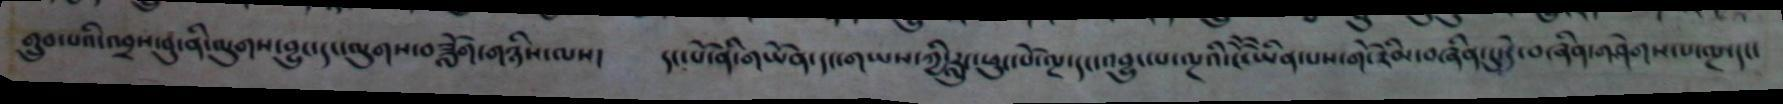གྲུབ་པའི་འབྲས་བུ་ནི་ལུགས་བྱུང་དང་ལུགས་བཟློག་གཉིས་ལས། དང་པོ་ནི་གཡོན་དང་གཡས་ཀྱི་རླུང་ཕུང་པོ་ལྔ་དང་འབྱུང་པ་ལྔའི་ངཽ་ཡིན་པས་གོ་རིམ་བཞིན་དུ་དེ་བཞིན་གཤེགས་པ་ལྔ་དང་
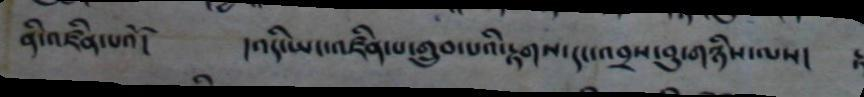ནི་འཛིན་པའོ། །འདི་ཡང་འཛིན་པ་གྲུབ་པའི་རྟགས་དང་འབྲས་བུ་གཉིས་ལས།
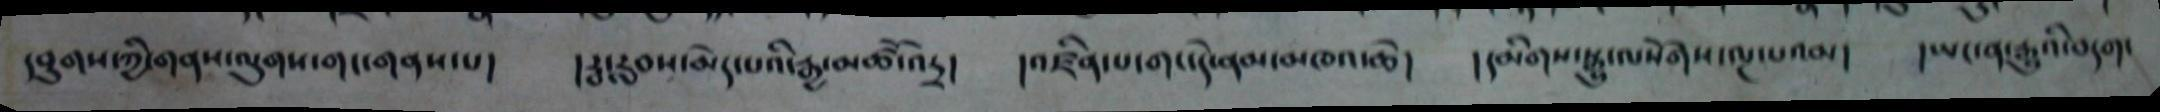དབུགས་ཀྱི་གནས་ལུགས་གང་གནས་པ། །རྦ་རླབས་མེད་པའི་རྒྱ་མཚོ་འདྲ། འཛིན་པ་གང་དེ་ནམ་མཁའ་ཆེ། །དམིགས་སྒྱུ་ལསོགས་ལྔ་པའམ། །ཡང་ན་རྒྱུའི་བདག་
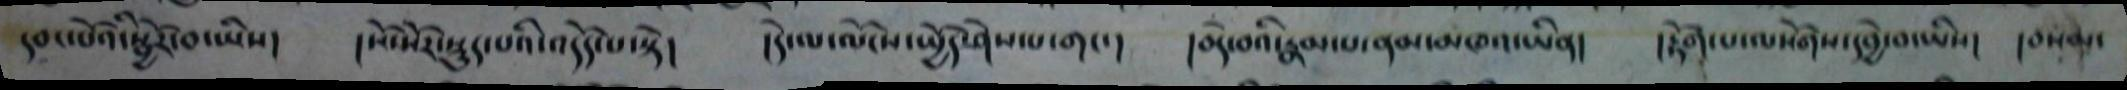དབང་པོའི་སྦྱོར་བ་ཡིས། །སོ་སོར་སྡུད་པའི་འདོད་པ་སྟེ། །དེ་ལ་ལོངས་སྤྱོད་ཤེས་པ་གང་། །བདེ་བའི་རྣམ་པ་ནམ་མཁའ་ཡིན། །རྟོག་པ་ལསོགས་དབྱེ་བ་ཡིས། །བསམ་
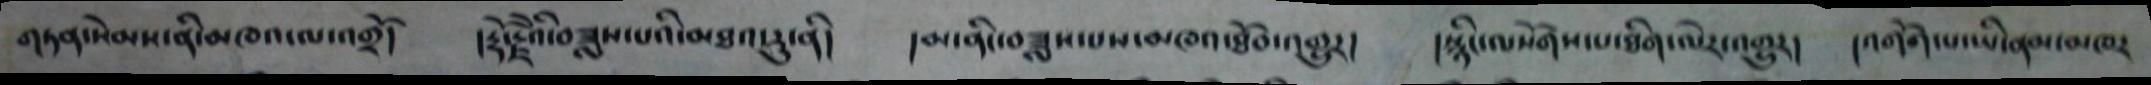གཏན་སེམས་ནི་མཁའ་ལ་འགྲོ། །རྡོ་རྗེའི་བཟླས་པའི་མཐའ་རུ་ནི། །མ་ནིང་བཟླས་པས་མཁའ་ཐོབ་འགྱུར། །སྙིང་ལསོགས་པ་ཐིག་ལེར་འགྱུར། །འགོག་པ་ཡི་ནམ་མཁར
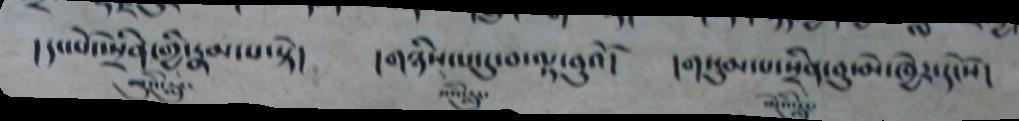།  དང་པོ་སྲིན་གྱི་རྣམ་པ་སྟེ།   ། གཉིས་པ་དུ་བ་ལྟ་བུའོ།   ། གསུམ་པ་སྲིན་བུ་མེ་ཁྱེར་དངོས།
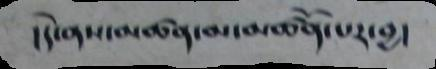།དེ་ནས་མཚན་མ་ཚོན་པར་བྱ།
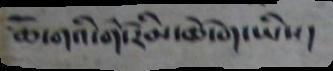ཆོ་གའི་གོ་རིམ་ཆོ་ག་ཡིས།
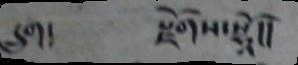དྲུག།    སྫོགས་སཱོ།།
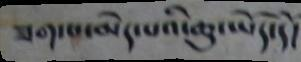ཟག་པ་མེད་པའི་ཆུ་ཡོད་དོ།
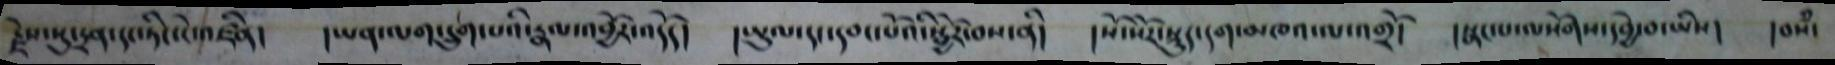རྗེས་སུ་དྲན་དང་ཏིང་ངེ་འཛིན། །ཡན་ལག་དྲུག་པའི་རྣལ་འབྱོར་འདོད། །ཡུལ་དང་དབང་པོའི་སྦྱོར་བས་ནི། །སོ་སོར་སྡུད་དག་མཁའ་ལ་འགྲོ། །སྣང་པ་ལསོགས་དབྱེ་བ་ཡིས། །བསཾ་
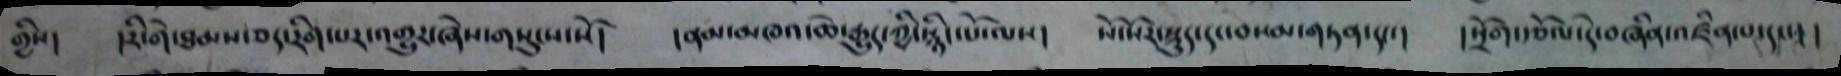གྱིས། དརི་གེ་ཐམས་ཅད་རིག་པར་འགྱུར་ཞེས་གསུངས་སོ། །ནམ་མཁའ་ཆེ་རྒྱུར་ཀྱི་སྙིང་པོ་ལས། སོ་སོར་སྡུད་དང་བསམ་གཏན་དང་། །སྲོག་རྩོལ་དེ་བཞིན་འཛིན་པ་དང་། །
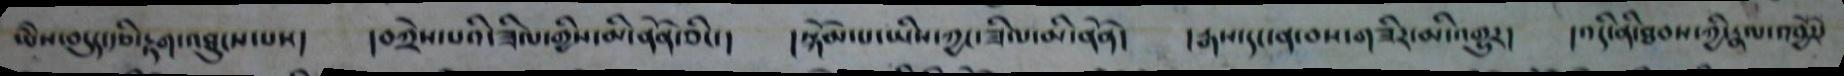ཡཻས་བདུད་རྩི་རྟག་འཐུངས་པས། །བཀྲེས་པའི་ཟིལ་གྱིས་མི་ནོན་ཅིང་། །སྐོམ་པ་ཡིས་ཀྱང་ཟིལ་མི་ནོན། །རྒས་དང་ན་བས་གཟིར་མི་འགྱུར། །འདི་ནི་ཐབས་ཀྱི་རྣལ་འབྱོར་
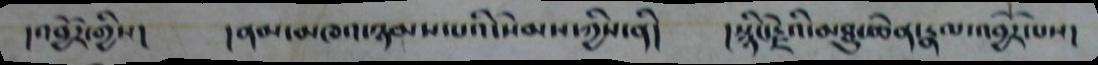།འབྱོར་གྱིས། །ནམ་མཁའ་ཉམས་པའི་སེམས་ཀྱིས་ནི། །སྙིང་རྗེའི་མཐུ་ཆེན་རྣལ་འབྱོར་པས།
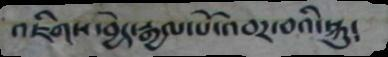འཇིགས་བྱེད་རྒྱལ་པོ་འབར་བའི་སྐུ༴
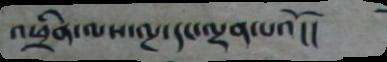འཕྲིན་ལས་ལྔ་དང་ལྡན་པའོ།།
